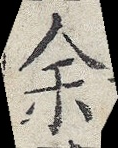余
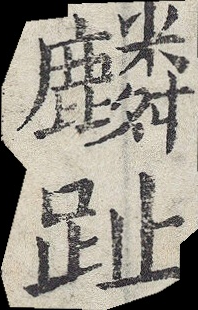麟趾
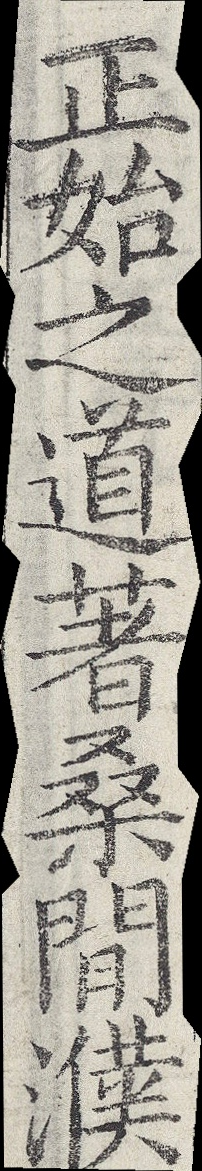正始之道著桑間濮
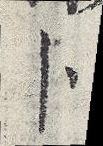卜
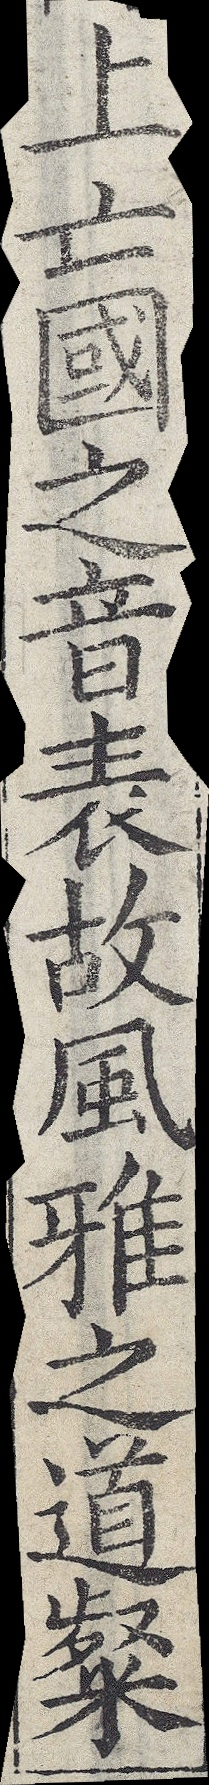上亡國之音表故風雅之道粲
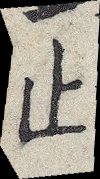止
